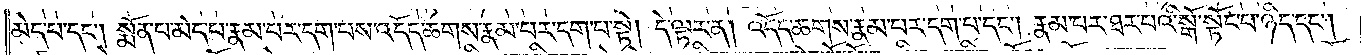མེད་པ་དང༌། སྨོན་པ་མེད་པ་རྣམ་པར་དག་པས་འདོད་ཆགས་རྣམ་པར་དག་པ་སྟེ། དེ་ལྟར་ན། འདོད་ཆགས་རྣམ་པར་དག་པ་དང༌། རྣམ་པར་ཐར་པའི་སྒོ་སྟོང་པ་ཉིད་དང༌།
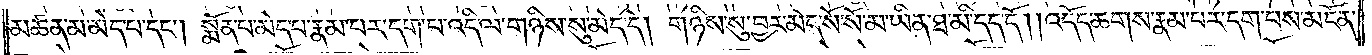མཚན་མ་མེད་པ་དང༌། སྨོན་པ་མེད་པ་རྣམ་པར་དག་པ་འདི་ལ་གཉིས་སུ་མེད་དེ། གཉིས་སུ་བྱར་མེད་སོ་སོ་མ་ཡིན་ཐ་མི་དད་དོ། །འདོད་ཆགས་རྣམ་པར་དག་པས་མངོན་
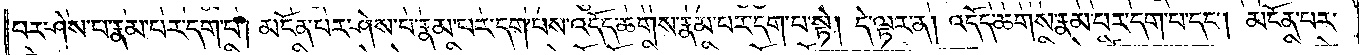པར་ཤེས་པ་རྣམ་པར་དག་པ། མངོན་པར་ཤེས་པ་རྣམ་པར་དག་པས་འདོད་ཆགས་རྣམ་པར་དག་པ་སྟེ། དེ་ལྟར་ན། འདོད་ཆགས་རྣམ་པར་དག་པ་དང༌། མངོན་པར་
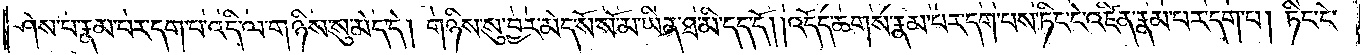ཤེས་པ་རྣམ་པར་དག་པ་འདི་ལ་གཉིས་སུ་མེད་དེ། གཉིས་སུ་བྱར་མེད་སོ་སོ་མ་ཡིན་ཐ་མི་དད་དོ། །འདོད་ཆགས་རྣམ་པར་དག་པས་ཏིང་ངེ་འཛིན་རྣམ་པར་དག་པ། ཏིང་ངེ་
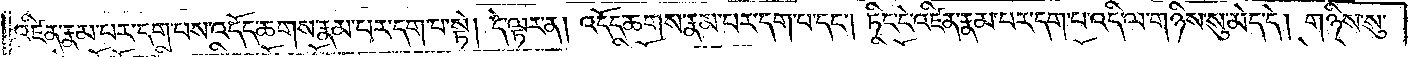འཛིན་རྣམ་པར་དག་པས་འདོད་ཆགས་རྣམ་པར་དག་པ་སྟེ། དེ་ལྟར་ན། འདོད་ཆགས་རྣམ་པར་དག་པ་དང༌། ཏིང་ངེ་འཛིན་རྣམ་པར་དག་པ་འདི་ལ་གཉིས་སུ་མེད་དེ། གཉིས་སུ་
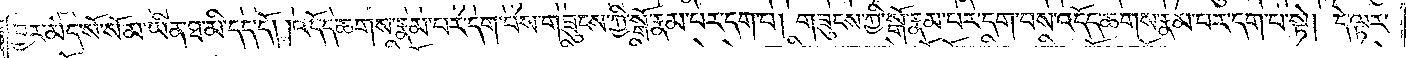བྱར་མེད་སོ་སོ་མ་ཡིན་ཐ་མི་དད་དོ། །འདོད་ཆགས་རྣམ་པར་དག་པས་གཟུངས་ཀྱི་སྒོ་རྣམ་པར་དག་པ། གཟུངས་ཀྱི་སྒོ་རྣམ་པར་དག་པས་འདོད་ཆགས་རྣམ་པར་དག་པ་སྟེ། དེ་ལྟར་
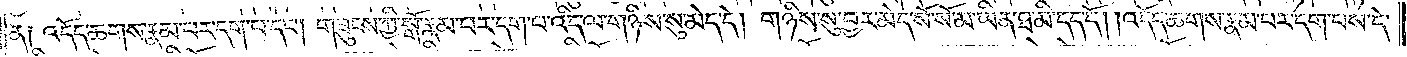ན༑ འདོད་ཆགས་རྣམ་པར་དག་པ་དང༌། གཟུངས་ཀྱི་སྒོ་རྣམ་པར་དག་པ་འདི་ལ་གཉིས་སུ་མེད་དེ། གཉིས་སུ་བྱར་མེད་སོ་སོ་མ་ཡིན་ཐ་མི་དད་དོ། །འདོད་ཆགས་རྣམ་པར་དག་པས་དེ་
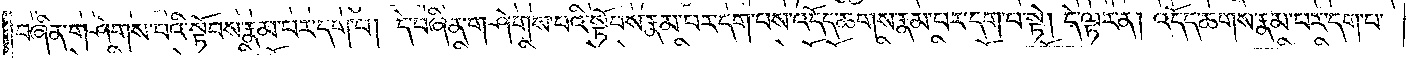བཞིན་གཤེགས་པའི་སྟོབས་རྣམ་པར་དག་པ། དེ་བཞིན་གཤེགས་པའི་སྟོབས་རྣམ་པར་དག་པས་འདོད་ཆགས་རྣམ་པར་དག་པ་སྟེ། དེ་ལྟར་ན། འདོད་ཆགས་རྣམ་པར་དག་པ་
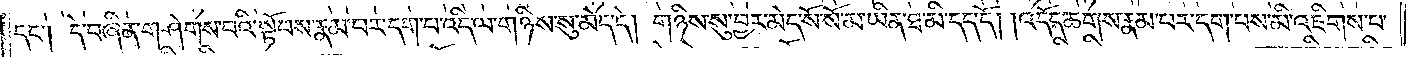དང༌། དེ་བཞིན་གཤེགས་པའི་སྟོབས་རྣམ་པར་དག་པ་འདི་ལ་གཉིས་སུ་མེད་དེ། གཉིས་སུ་བྱར་མེད་སོ་སོ་མ་ཡིན་ཐ་མི་དད་དོ། །འདོད་ཆགས་རྣམ་པར་དག་པས་མི་འཇིགས་པ་
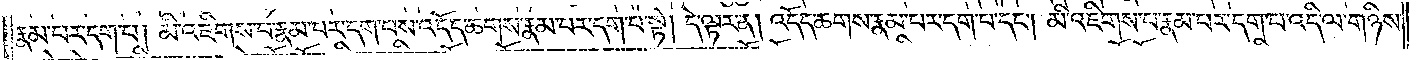རྣམ་པར་དག་པ། མི་འཇིགས་པ་རྣམ་པར་དག་པས་འདོད་ཆགས་རྣམ་པར་དག་པ་སྟེ། དེ་ལྟར་ན། འདོད་ཆགས་རྣམ་པར་དག་པ་དང༌། མི་འཇིགས་པ་རྣམ་པ་འདི་ལ་གཉིས་
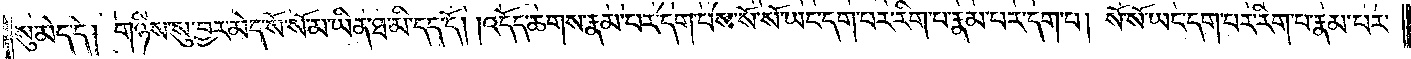སུ་མེད་དེ། གཉིས་སུ་བྱར་མེད་སོ་སོ་མ་ཡིན་ཐ་མི་དད་དོ། །འདོད་ཆགས་རྣམ་པར་དག་པས་སོ་སོ་ཡང་དག་པར་རིག་པ་རྣམ་པར་དག་པ། སོ་སོ་ཡང་དག་པར་རིག་པ་རྣམ་པར་
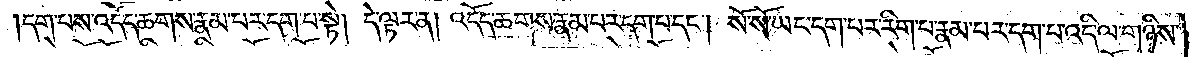དག་པས་འདོད་ཆགས་རྣམ་པར་དག་པ་སྟེ། དེ་ལྟར་ན། འདོད་ཆགས་རྣམ་པར་དག་པ་དང༌། སོ་སོ་ཡང་དག་པར་རིག་པ་རྣམ་པར་དག་པ་འདི་ལ་གཉིས་
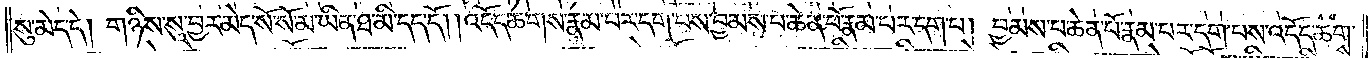སུ་མེད་དེ། གཉིས་སུ་བྱར་མེད་སོ་སོ་མ་ཡིན་ཐ་མི་དད་དོ། །འདོད་ཆགས་རྣམ་པར་དག་པས་བྱམས་པ་ཆེན་པོ་རྣམ་པར་དག་པ། བྱམས་པ་ཆེན་པོ་རྣམ་པར་དག་པས་འདོད་ཆགས་
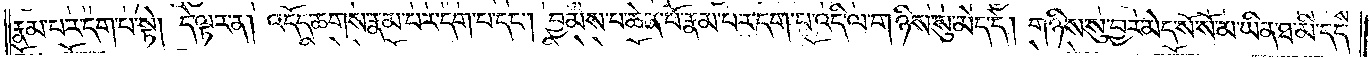རྣམ་པར་དག་པ་སྟེ། དེ་ལྟར་ན། འདོད་ཆགས་རྣམ་པར་དག་པ་དང༌། བྱམས་པ་ཆེན་པོ་རྣམ་པར་དག་པ་འདི་ལ་གཉིས་སུ་མེད་དེ། གཉིས་སུ་བྱར་མེད་སོ་སོ་མ་ཡིན་ཐ་མི་དད་
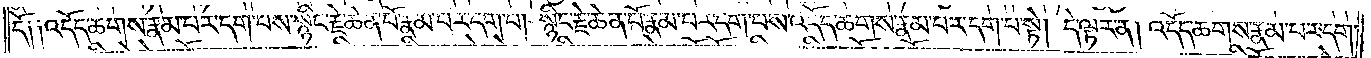དོ༑ ༑འདོད་ཆགས་རྣམ་པར་དག་པས་སྙིང་རྗེ་ཆེན་པོ་རྣམ་པར་དག་པ། སྙིང་རྗེ་ཆེན་པོ་རྣམ་པར་དག་པས་འདོད་ཆགས་རྣམ་པར་དག་པ་སྟེ། །དེ་ལྟར་ན། འདོད་ཆགས་རྣམ་པར་དག་
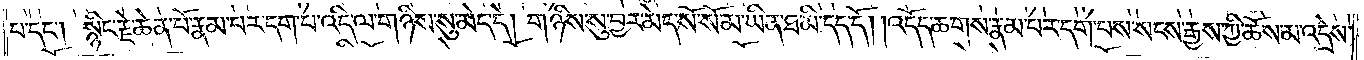པ་དང༌། སྙིང་རྗེ་ཆེན་པོ་རྣམ་པར་དག་པ་འདི་ལ་གཉིས་སུ་མེད་དེ། གཉིས་སུ་བྱར་མེད་སོ་སོ་མ་ཡིན་ཐ་མི་དད་དོ། །འདོད་ཆགས་རྣམ་པར་དག་པས་སངས་རྒྱས་ཀྱི་ཆོས་མ་འདྲེས་
